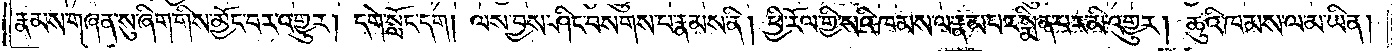རྣམས་གཞན་སུ་ཞིག་གིས་མྱོང་བར་འགྱུར། དགེ་སློང་དག། ལས་བྱས་ཤིང་བསགས་པ་རྣམས་ནི། ཕྱི་རོལ་གྱི་སའི་ཁམས་ལ་རྣམ་པར་སྨིན་པར་མི་འགྱུར། ཆུའི་ཁམས་ལ་མ་ཡིན།
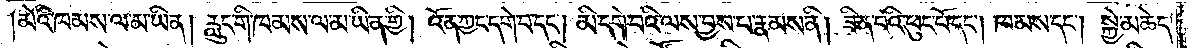མེའི་ཁམས་ལ་མ་ཡིན། རླུང་གི་ཁམས་ལ་མ་ཡིན་གྱི། འོན་ཀྱང་དགེ་བ་དང༌། མི་དགེ་བའི་ལས་བྱས་པ་རྣམས་ནི། ཟིན་པའི་ཕུང་པོ་དང༌། ཁམས་དང༌། སྐྱེ་མཆེད་
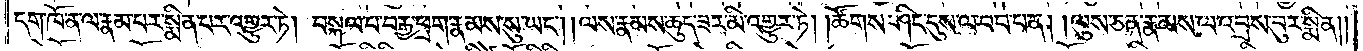དག་ཁོ་ན་ལ་རྣམ་པར་སྨིན་པར་འགྱུར་ཏེ། བསྐལ་པ་བརྒྱ་ཕྲག་རྣམས་སུ་ཡང༌། །ལས་རྣམས་ཆུད་ཟར་མི་འགྱུར་ཏེ། །ཚོགས་ཤིང་དུས་ལ་བབ་པ་ན། །ལུས་ཅན་རྣམས་ལ་འབྲས་བུར་སྨིན།
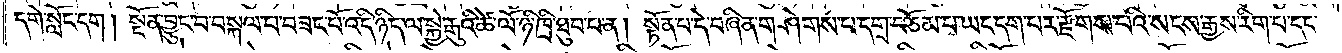དགེ་སློང་དག། སྔོན་བྱུང་བ་བསྐལ་པ་བཟང་པོ་འདི་ཉིད་ལ་སྐྱེ་རྒུའི་ཚེ་ལོ་ཉི་ཁྲི་ཐུབ་པ་ན། སྟོན་པ་དེ་བཞིན་གཤེགས་པ་དགྲ་བཅོམ་པ་ཡང་དག་པར་རྫོགས་པའི་སངས་རྒྱས་རིག་པ་དང་
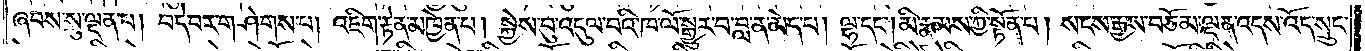ཞབས་སུ་ལྡན་པ། བདེ་བར་གཤེགས་པ། འཇིག་རྟེན་མཁྱེན་པ། སྐྱེས་བུ་འདུལ་བའི་ཁ་ལོ་སྒྱུར་བ་བླ་ན་མེད་པ། ལྷ་དང༌། མི་རྣམས་ཀྱི་སྟོན་པ། སངས་རྒྱས་བཅོམ་ལྡན་འདས་འོད་སྲུང་
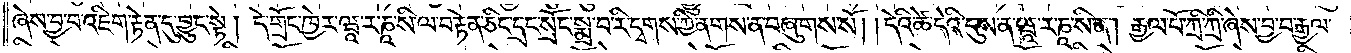ཞེས་བྱ་བ་འཇིག་རྟེན་དུ་བྱུང་སྟེ། དེ་གྲོང་ཁྱེར་ཝཱ་ར་ཎཱ་སི་ལ་བརྟེན་ཅིང་དྲང་སྲོང་སྨྲ་བ་རི་དྭགས་ཀྱི་ནགས་ན་བཞུགས་སོ། །དེའི་ཚེ་དེའི་དུས་ན་ཝཱ་ར་ཎཱ་སི་ན། རྒྱལ་པོ་ཀྲི་ཀྲི་ཞེས་བྱ་བ་རྒྱལ་
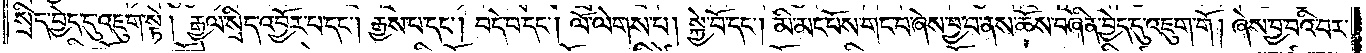སྲིད་བྱེད་དུ་འཇུག་སྟེ། རྒྱལ་སྲིད་འབྱོར་པ་དང༌། རྒྱས་པ་དང༌། བདེ་བ་དང༌། ལོ་ལེགས་པ། སྐྱེ་བོ་དང༌། མི་མང་པོས་གང་བ་ཞེས་བྱ་བ་ནས་ཆོས་བཞིན་བྱེད་དུ་འཇུག་གོ། ཞེས་བྱ་བའི་བར་
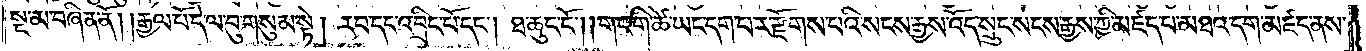སྔ་མ་བཞིན་ནོ། །རྒྱལ་པོ་དེ་ལ་བུ་གསུམ་སྟེ། རབ་དང་འབྲིང་པོ་དང༌། ཐ་ཆུང་ངོ༌། །གང་གི་ཚེ་ཡང་དག་པར་རྫོགས་པའི་སངས་རྒྱས་འོད་སྲུང་སངས་རྒྱས་ཀྱི་མཛད་པ་མཐའ་དག་མཛད་ནས་
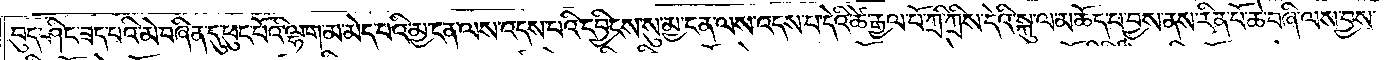བུད་ཤིང་ཟད་པའི་མེ་བཞིན་དུ་ཕུང་པོའི་ལྷག་མ་མེད་པའི་མྱ་ངན་ལས་འདས་པའི་དབྱིངས་སུ་མྱ་ངན་ལས་འདས་པ་དེའི་ཚེ་རྒྱལ་པོ་ཀྲི་ཀྲིས་དེའི་སྐུ་ལ་མཆོད་པ་བྱས་ནས་རིན་པོ་ཆེ་བཞི་ལས་བྱས་
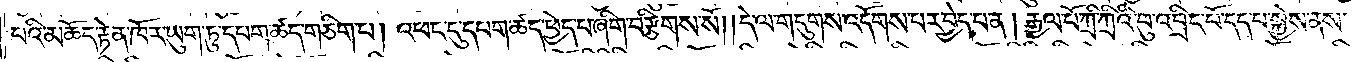པའི་མཆོད་རྟེན་ཁོར་ཡུག་ཏུ་དཔག་ཚད་གཅིག་པ། འཕང་དུ་དཔག་ཚད་ཕྱེད་པ་ཞིག་བརྩིགས་སོ། །དེ་ལ་གདུགས་འདོགས་པར་བྱེད་པ་ན། རྒྱལ་པོ་ཀྲི་ཀྲིའི་བུ་འབྲིང་པོ་དད་པ་སྐྱེས་ནས་
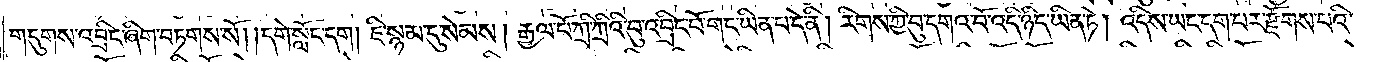གདུགས་འབྲིང་ཞིག་བཏགས་སོ། །དགེ་སློང་དག། ཇི་སྙམ་དུ་སེམས། རྒྱལ་པོ་ཀྲི་ཀྲིའི་བུ་འབྲིང་པོ་གང་ཡིན་པ་དེ་ནི། རིགས་ཀྱི་བུ་དགའ་བོ་འདི་ཉིད་ཡིན་ཏེ། འདིས་ཡང་དག་པར་རྫོགས་པའི་
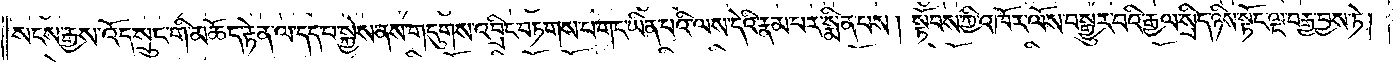སངས་རྒྱས་འོད་སྲུང་གི་མཆོད་རྟེན་ལ་དད་པ་སྐྱེས་ནས་གདུགས་འབྲིང་བཏགས་པ་གང་ཡིན་པའི་ལས་དེའི་རྣམ་པར་སྨིན་པས། སྟོབས་ཀྱི་འཁོར་ལོས་བསྒྱུར་བའི་རྒྱལ་སྲིད་ཉིས་སྟོང་ལྔ་བརྒྱ་བྱས་ཏེ།
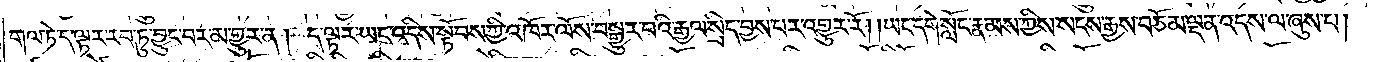གལ་ཏེ་ད་ལྟར་རབ་ཏུ་བྱུང་བར་མ་གྱུར་ན། ད་ལྟར་ཡང་འདིས་སྟོབས་ཀྱི་འཁོར་ལོས་བསྒྱུར་བའི་རྒྱལ་སྲིད་བྱས་པར་འགྱུར་རོ། །ཡང་དགེ་སློང་རྣམས་ཀྱིས་སངས་རྒྱས་བཅོམ་ལྡན་འདས་ལ་ཞུས་པ།
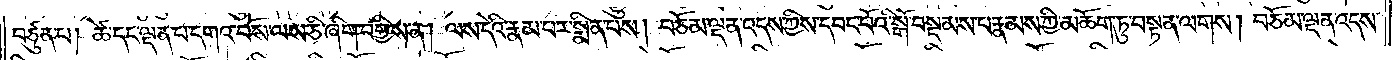བཙུན་པ། ཚེ་དང་ལྡན་པ་དགའ་བོས་ལས་ཅི་ཞིག་བགྱིས་ན། ལས་དེའི་རྣམ་པར་སྨིན་པས། བཅོམ་ལྡན་འདས་ཀྱིས་དབང་པོའི་སྒོ་བསྡམས་པ་རྣམས་ཀྱི་མཆོག་ཏུ་བསྟན་ལགས། བཅོམ་ལྡན་འདས་
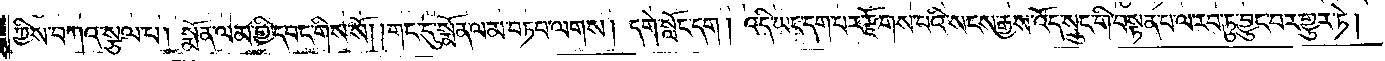ཀྱིས་བཀའ་སྩལ་པ། སྨོན་ལམ་གྱི་དབང་གིས་སོ། །གང་དུ་སྨོན་ལམ་བཏབ་ལགས། དགེ་སློང་དག། འདི་ཡང་དག་པར་རྫོགས་པའི་སངས་རྒྱས་འོད་སྲུང་གི་བསྟན་པ་ལ་རབ་ཏུ་བྱུང་བར་གྱུར་ཏེ།
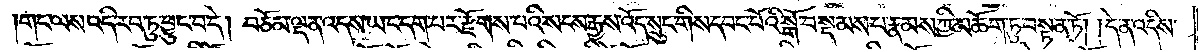གང་ལས་འདི་རབ་ཏུ་བྱུང་བ་དེ། བཅོམ་ལྡན་འདས་ཡང་དག་པར་རྫོགས་པའི་སངས་རྒྱས་འོད་སྲུང་གིས་དབང་པོའི་སྒོ་བསྡམས་པ་རྣམས་ཀྱི་མཆོག་ཏུ་བསྟན་ཏོ། །དེ་ན་འདིས་
